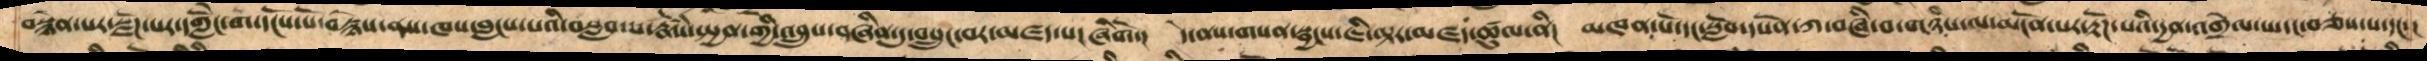བསྙེན་པར་སྫོཌ་པར་དགླེངོ་ག་དངོས་པོ་བརྙེས་ནས་ཁས་བླངས་པའི་བསླབ་པ་རྣཾས་སྤྱན་གྱི་འབྲུས་བཞིན་དུ་བསྲུང་བར་མཛད་པ་ཞིགོ་།  དེ་ནས་གསན་སྦྱངས་ཇི་ལྟར་མཛད་ཚུལ་ནི།  མཁན་པོ་དང་སློབ་དཔོན་ཀ་བཞི་བ་གཉིས་ལ་མངོན་པར་རྟོཌ་པའི་དྱན་འགྲེལ་པ་དང་བཅས་པ་དང་།
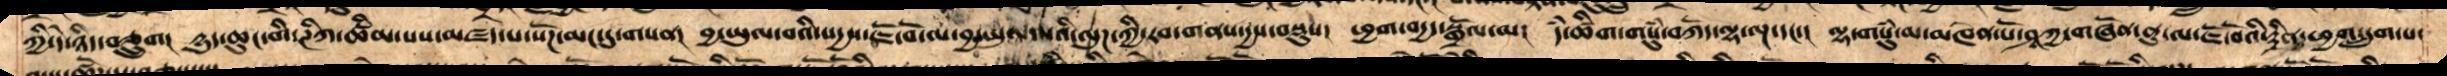ཀྱི་དེ་ཉིད་བཅྲུག།  དྱུད་ཆུང་གི་ཊིཀ་ཚིམ་པས་མཛད་པ་སོཌ་མང་དུ་གསན།  བྱ་ཡུལ་བའི་སདྱས་ཇོ་བོ་ལ་བྱ་ཡུལ་བའི་ལུཌ་ཀྱི་རབ་གནས་དྱས་བསྡུས།  ཕྱག་བདྱད་སྒྲོལ་མ།  དཾ་ཚིག་གསུཾ་བཀོད་ལྷ་ལྔ་དང་།  ལྷ་གསུཾ་མ་མཁན་པོ་ཤཱཀྱ་གཞོན་ནུ་ལ་ཇོ་བོའི་རྟྲིན་ཕྱག་དྲུག་པ་
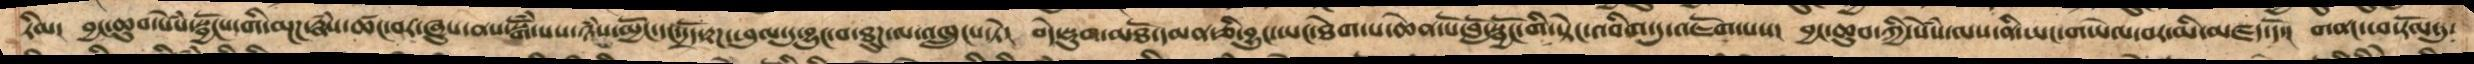རིམ།  བྱང་ཆུབ་སེཾས་སྦྱོངས་གི་མྔཌ་རྣཾས་ཚང་བར་ཞུས་ནས་སྒོཾ་པས་ཉཾས་མྱོང་དང་དྲོད་རྟཌ་ཕུལ་དུ་བྱུང་བ་ཐུཌ་ལ་འཁྲུངས་ཏེ།  བདེ་སྡུག་མཐོ་དམན་ཅི་བྱུང་ཡང་ཐེག་པ་ཆེན་པོ་བློ་སྦྱོང་གི་སྟེང་འབིག་དུ་འཇོག་པས།   བྱང་ཆུབ་ཀྱི་སེཾས་ལས་ནི་ཡང་གཡེལ་བར་མི་མཛད་དོ་།  གནང་ཕ་རོལ་དུ་
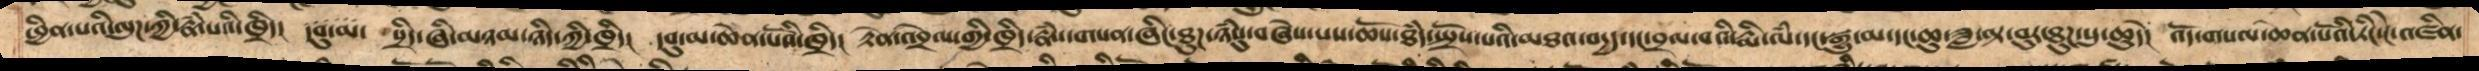ཕྱིན་པའི་ལུཌ་ཀྱི་རྣཾ་པའི་ཁྲིད།  དབུ་མ་སྲིད་ཞི་མཉམ་ཉིད་ཀྱི་ཁྲིད།  དབུ་མ་ཆེན་པོའི་ཁྲིད།  རྟེན་འབྲེལ་གྱི་ཁྲིད་རྣཾས་གསན་ཞིང་ཐུཌ་ཉཾསུ་བཞེས་པས་ཆོས་ཐཾད་སྤྲོས་པའི་མཐའ་བདྱད་དང་བྲལ་བའི་རྨི་ལཾ་དང་སྒྱུ་མ་དང་ཆུ་ཟླ་ལྟ་བུར་ཐུཌ་སུ་ཆུདེ།  འོད་གསལ་ཆེན་པོའི་ཏིང་ངེ་འཛིན་
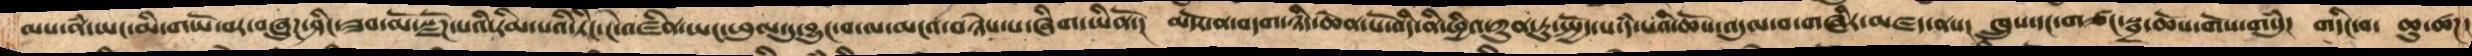ལས་ནཾ་ཡང་མི་གཡོ་བར་བཞུཌ་ཤིང་ཟབ་མོ་སྫོཌ་པའི་རིམ་པའི་ཏིང་ངེ་འཛིན་ཡང་ཕུལ་དུ་བྱུང་བ་ལ་མངའ་བཉེས་པ་ཞིག་ཡིནོ་།  མདོར་ན་བདག་ཉིད་ཆེན་པོ་འདི་ནི་ཕྱིན་ཀུན་ཏུ་སྤྱོད་པ་དཾ་པའི་ཆོས་འདུལ་བ་གཞིར་མཛད་ནས།   ཁྲུས་དང་གཙང་སྦྲ་ཆོས་གོས་གསུཾ།  གདིང་བ་  ཆུ་ཚཌ་
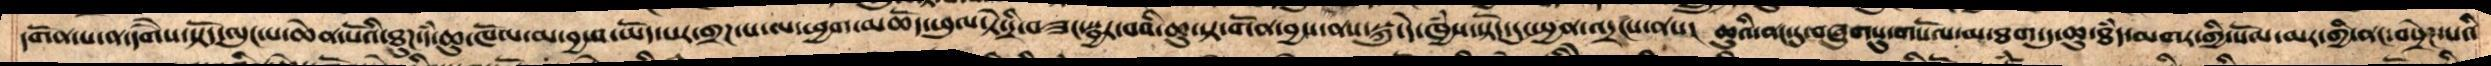དགོན་པ་ན་དགཻས་སྟོད་ལུང་པ་ཆེན་པོའི་ཐུཌ་དཾ་ཆུ་ཁོལ་མ་བྱ་བ་ཡོད་པར་གྲཌ་པ་ལ་ཕྱག་མཆོད་ཕུལ་ཏེ་དྲི་བཟང་སྦྱར་བའི་ཆུ་སྟ་གོན་བྱས་ནས་སྐུ་དེ་ཁྱཾས་སྟོད་དུ་སྤྱན་འདྲངས་ནས།  ཆུའི་ནང་དུ་བཞུགསུ་གསོལ་མ་ཐག་དུ་ཆུ་ཐཾད་མགར་གྱི་སོལ་མར་གྱི་ནང་བསྲེཌ་པའི་
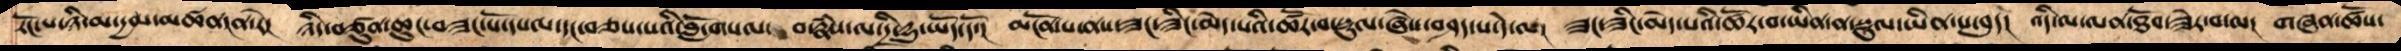རོང་པ་ཉི་མ་དྱལ་མཚན་ན་རེ།  ཉིད་བཙུན་ཆུང་བཟང་པོ་དཔལ་དང་བཅས་པའི་བློ་གསལ་བ་རྣཾས་ལ་དྲི་དྱུ་ཡོད་དོ་།  མངོན་པ་ནས་ཟང་ཟིང་མེད་པའི་ཚོར་བ་སྡུལ་ཞེས་བཤད་པ་དེ་ལ།  ཟང་ཟིང་མེད་པའི་ཚོར་བ་ཡིན་ན་སྡུལ་ཡིན་པ་བུད། འདི་ལ་ལན་ཐོབ་ཟེར་བ་ལ། གཞན་ཚོས་
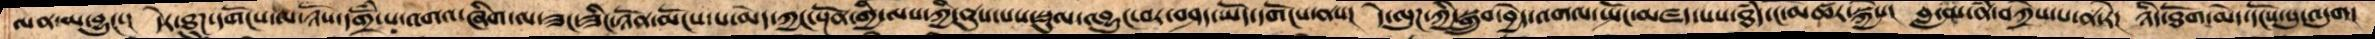ལན་མ་བྱུང་།  དེར་ཐུཌ་དགོངས་ལ་ཉོས་དགྲོཾ་པ་འགའ་ཞིག་ལ་ཟང་ཟིང་ཉོན་མོངས་པ་མེད་ཀྱང་སྔོན་གྱི་ལས་ཀྱི་ནུས་པས་སྡུལ་འབྱུང་བར་བཤད་ཡོད་དགོངས་ནས།  དེ་ལུཌ་ཀྱི་སྒྲུབ་བྱེད་འགལ་སྤོང་མཛད་པས་ཐཾད་ངོ་མཚར་སྐྱེས།  བླ་མ་ནཾ་བཀྲེས་པ་ན་རེ།  ཉིད་ཐོག་མེད་དངོས་སུ་འདུག
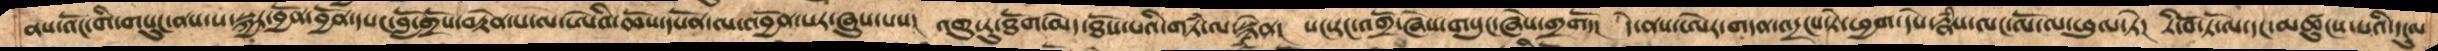ནས་འོང་གི་གསུངས་ནས་ས་སྐྱར་བྱོན་ཏེ་དཔང་བློ་གྲོས་བརྟེན་པ་ལ་ཨེའི་ཆོས་དཔོན་ལ་འབྱོན་པར་ཞུས་པས།  གུ་རུ་ཐོག་མེད་ཐོས་པའི་གཏཾ་ལ་སྙེན།  སང་རང་འགྲོ་ཞེས་གསུང་ཞེས་གྲགོ་།  དེ་ནས་ཨེར་གདན་འདྲངས་ཏེ་ཕྱག་དཔེ་རྣཾས་ལང་ལོ་ལ་ཕུལ་ཏེ།  རི་བོ་ཏ་ལོ་དང་མཚུངས་པའི་དངུལ
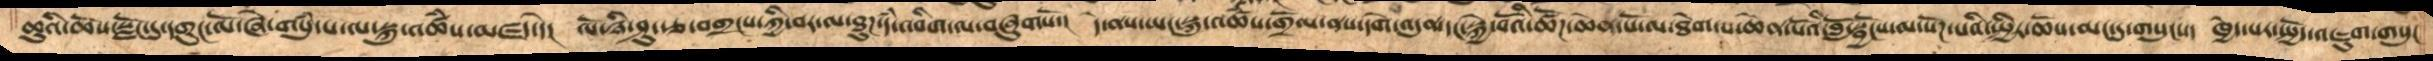ཆུའི་ཆོས་སྫོང་དུ་དགུང་ལོ་ཞེ་གསུཾ་པ་ལ་སྐུ་འཚཾས་མཛད་དེ།  ལོ་ཉི་ཤུ་རྩ་བགྲངས་ཀྱི་བར་ལ་ཐུཌ་དཾ་འབིག་ལ་བཞུགསོ་།  དེ་ནས་ཡང་སྐུ་འཚཾས་གྲོལ་ནས་དགེ་འདུན་དང་སྐྱེ་བོའི་ཚོཌ་ཆེན་པོ་ལ་ཐེག་པ་ཆེན་པོའི་བློ་སྦྱོངས་ལ་སོཌ་པའི་སྤྱིར་ཆོས་མང་དུ་གསུངས།  ཁྱེད་པར་སྤྱོད་འཇུག་གསུང་
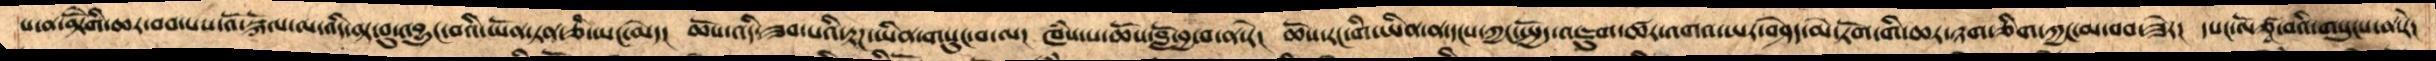པ་ན་མྟེོགི་ཆར་བབ་པས་འོ་སྐོལ་ལ་འདི་ལྟ་བུ་འབྱུང་བའི་ཡོན་ཏན་ཅི་ཡང་མེད།  ཆོས་འདི་ཟབ་པའི་རྟཌ་ཡིན་གསུང་བ་ལ།  ཁཾས་པ་ཆོས་བློ་བྱ་བ་ན་རེ།  ཆོས་རང་གི་ཡིན་ན་དངས་ཀྱང་སྤྱོད་འཇུག་ཚར་འགའ་ཡར་བཤེད་མེ་ཏོག་གི་ཆར་ཉག་ཅིག་ཀྱང་མ་བབ་ཟེར།  དཔང་ལོ་ཙཱ་བའི་གསུངས་ན་རེ།
